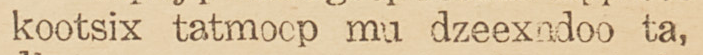kootsix tatmoop mu dzeexndoo ta,
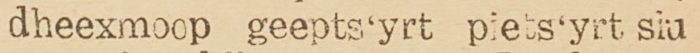dheexmoop geepts'yrt piets'yrt siu
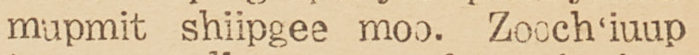mupmit shiipgee moo. Zooch'iuup
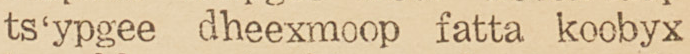ts'ypgee dheexmoop fatta koobyx
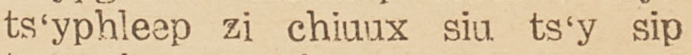ts'yphleep zi chiuux siu ts'y sip
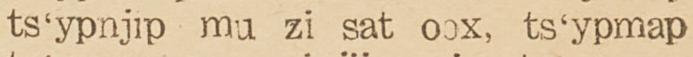ts'ypnjip mu zi sat oox, ts'ypmap
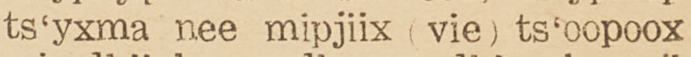ts'yxma nee mipjiix (vie) ts'oopoox
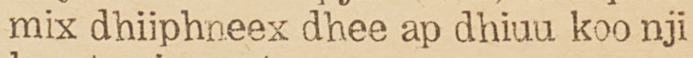mix dhiiphneex dhee ap dhiuu koo nji
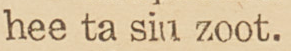hee ta siu zoot.
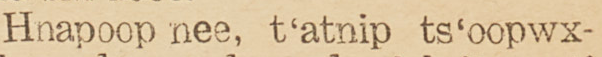Hnapoop nee, t'atnip ts'oopwx-
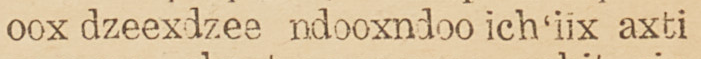oox dzeexdzee ndooxndoo ich'iix axti
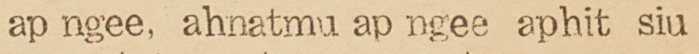ap ngee, ahnatmu ap ngee aphit siu
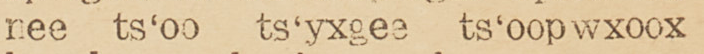nee ts'oo ts'yxgee ts'oopwxoox
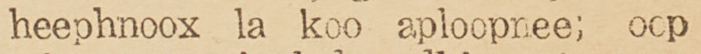heephnoox la koo aploopnee; oop
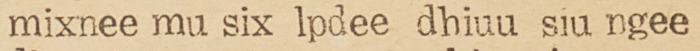mixnee mu six lpdee dhiuu siu ngee
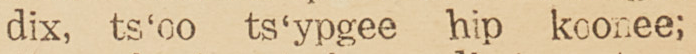dix, ts'oo ts'ypgee hip koonee;
